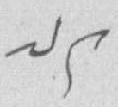༧༩
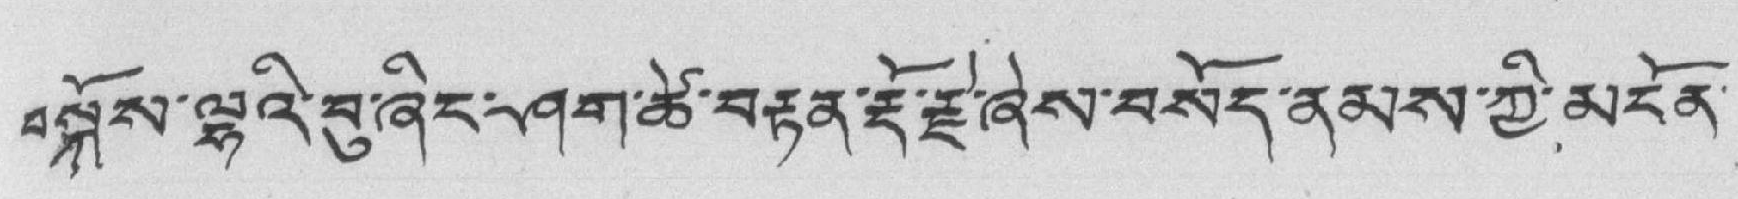བསྐོས་ལྷའི་བུ་ཞིང་ཤག་ཚེ་བརྟན་རྡོ་རྗེ་ཞེས་བསོད་ནམས་ཀྱི་མངོན་
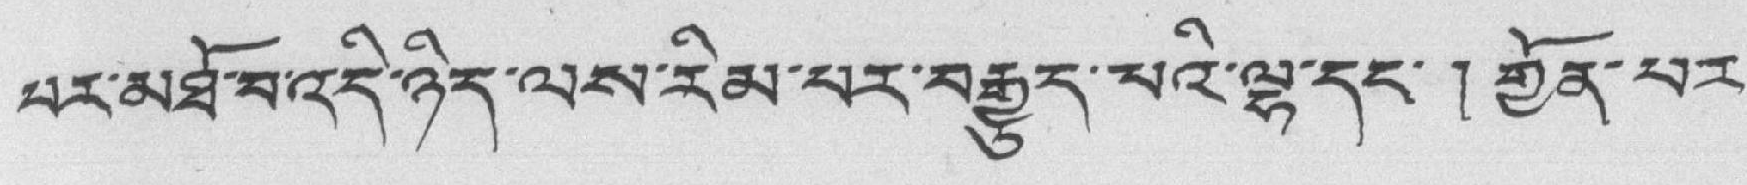པར་མཐོ་བ་འདི་ཉིད་ལས་རིམ་པར་བརྒྱུད་པའི་ལྷ་དང་། གྱོན་པར་
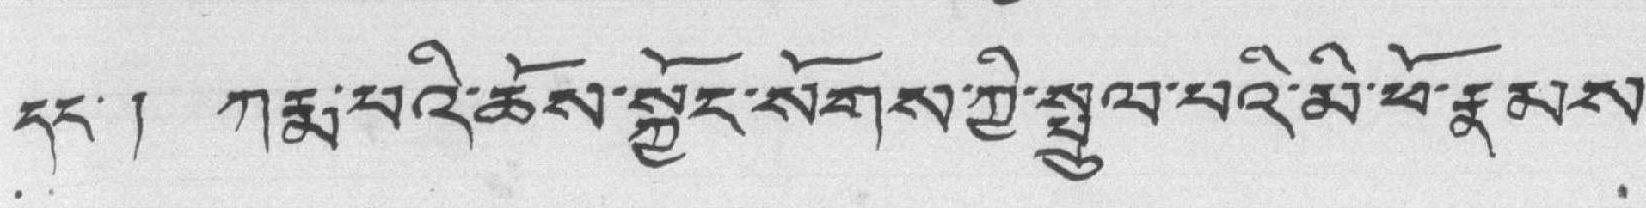དང་། ཀརྨ་པའི་ཆོས་སྐྱོང་སོགས་ཀྱི་སྤྲུལ་པའི་མི་ཕོ་རྣམས་
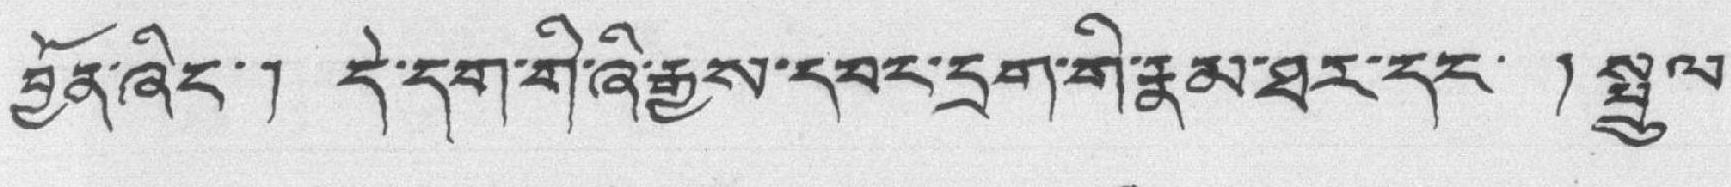བྱོན་ཞིང་། དེ་དག་གི་ཞི་རྒྱས་དབང་དྲག་གི་རྣམ་ཐར་དང་། སྤྲུལ་
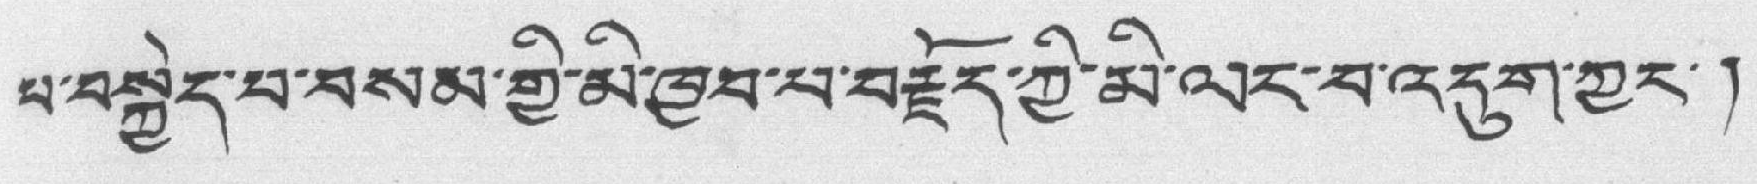པ་བསྐྱེད་པ་བསམ་གྱི་མི་ཁྱབ་པ་བརྗོད་ཀྱི་མི་ལང་བ་འདུག་ཀྱང་།
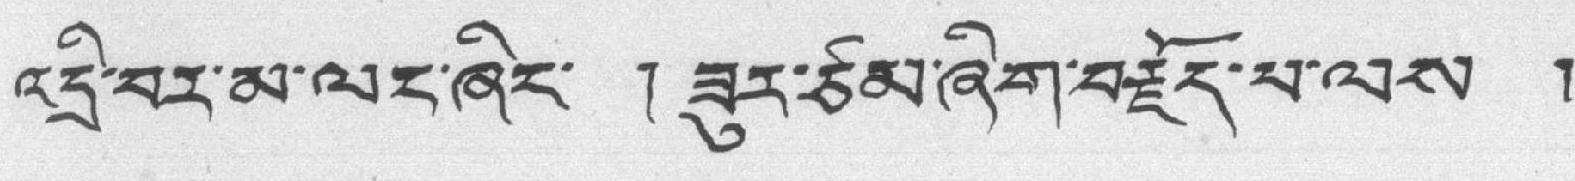འདྲི་བར་མ་ལང་ཞིང་ ། ཟུར་ཙམ་ཞིག་བརྗོད་པ་ལས །
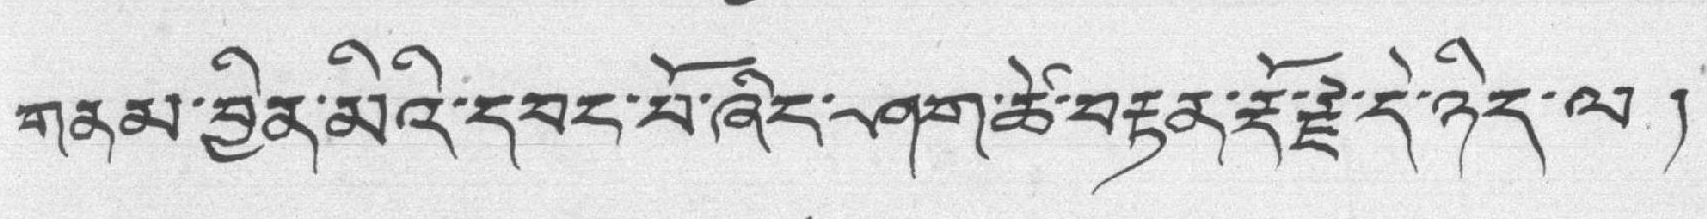གནམ་བྱིན་མིའི་དབང་པོ་ཞིང་ཤག་ཚེ་བརྟན་རྡོ་རྗེ་དེ་ཉིད་ལ །
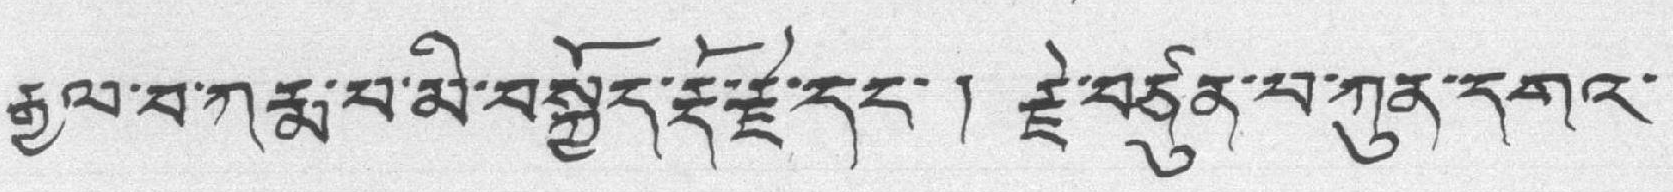རྒྱལ་བ་ཀརྨ་པ་མི་བསྐྱོད་རྡོ་རྗེ་དང་། རྗེ་བཙུན་པ་ཀུན་དགའ་
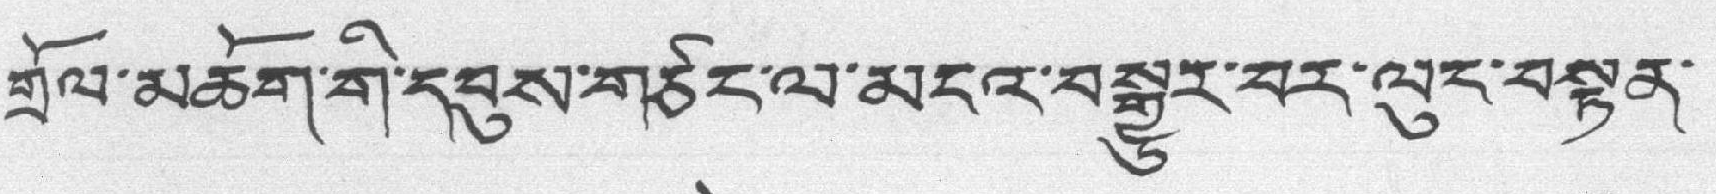གྲོལ་མཆོག་གི་དབུས་གཙང་ལ་མངའ་བསྒྱུར་བར་ལུང་བསྟན་
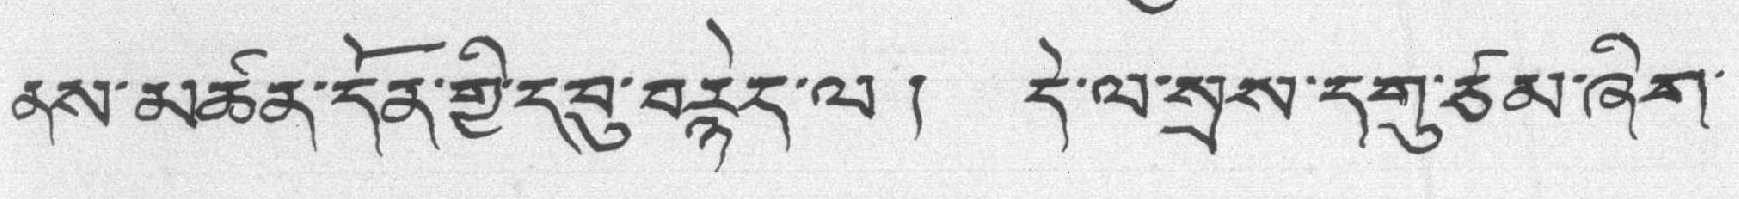ནས་མཚན་དོན་གྱི་དབུ་བརྙེད་ལ། དེ་ལ་སྲས་དགུ་ཙམ་ཞིག་
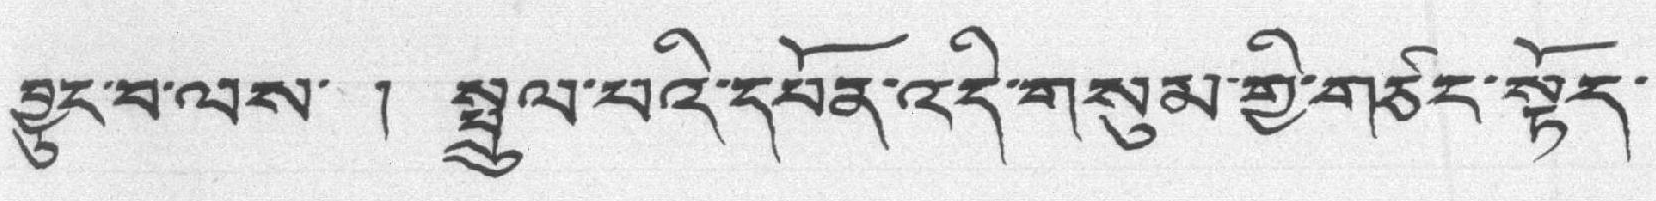བྱུང་བ་ལས། སྤྲུལ་པའི་དཔོན་འདི་གསུམ་གྱི་གཙང་སྟོད་
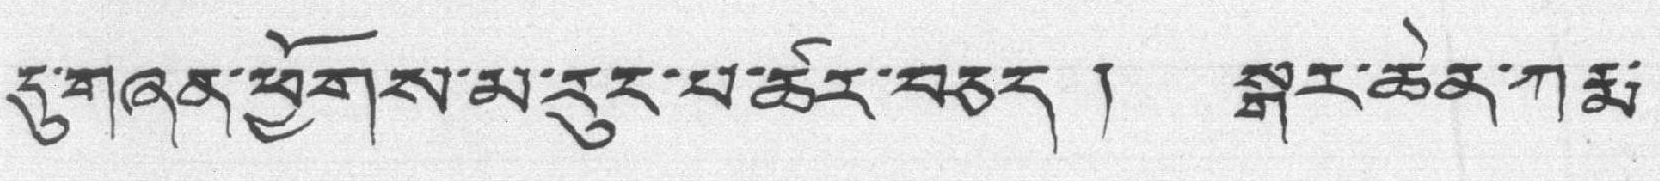དུ་གཞན་ཕྱོགས་མ་རུང་པ་ཚར་བཅད། སྒར་ཆེན་ཀརྨ་
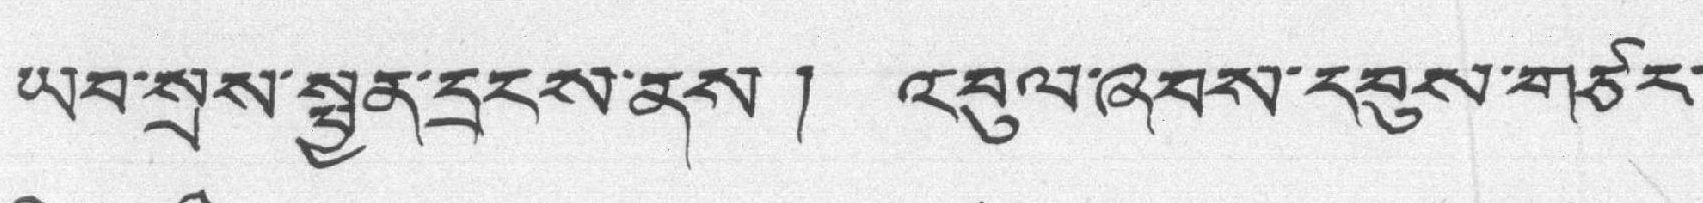ཡབ་སྲས་སྤྱན་དྲངས་ནས། འབུལ་ཞབས་དབུས་གཙང་
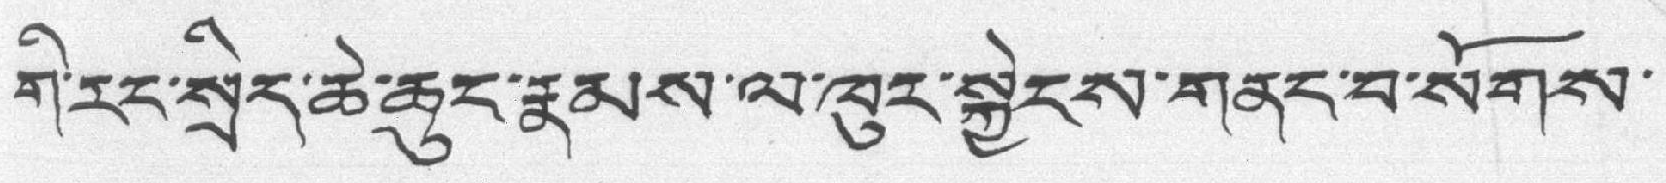གི་རང་སྲིད་ཆེ་ཆུང་རྣམས་ལ་ཁུར་སྐྱེངས་གནང་བ་སོགས་
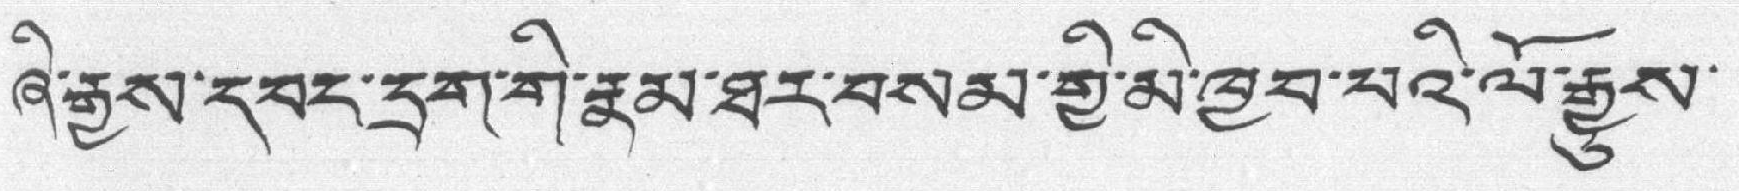ཞི་རྒྱས་དབང་དྲག་གི་རྣམ་ཐར་བསམ་གྱི་མི་ཁྱབ་པའི་ལོ་རྒྱུས་
